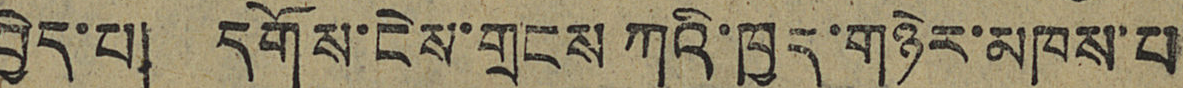བྱེད་པ། དགོས་ངེས་གྲངས ཀའི་ཁྱད་གཉེར་མཁས་པ
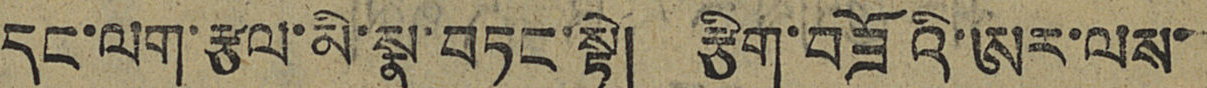དང་ལག་རྩལ་མི་སྣ་བཏང་སྟེ། རྩིག་བཟོའི་ཨར་ལས་
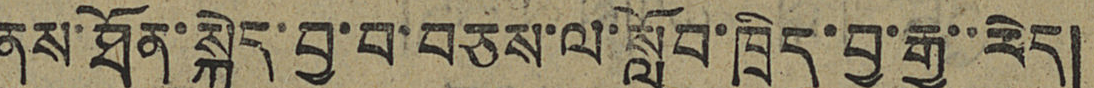ནས་ཐོན་སྐྱེད་བྱ་བ་བཅས་ལ་སློབ་ཁྲིད་བྱ་རྒྱུ་་རེད།
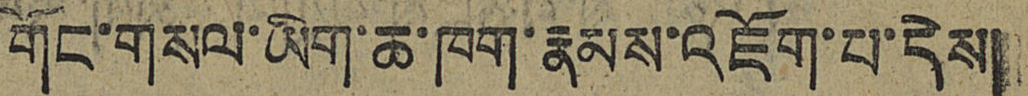གོང་གསལ་ཡིག་ཆ་ཁག་རྣམས་འཇོག་པ་དེས།
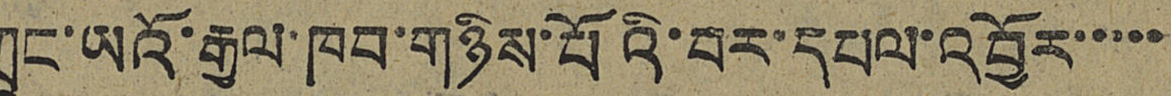ཀྲུང་ཡའོ་རྒྱལ་ཁབ་གཉིས་པོའི་བར་དཔལ་འབྱོར་་་་་
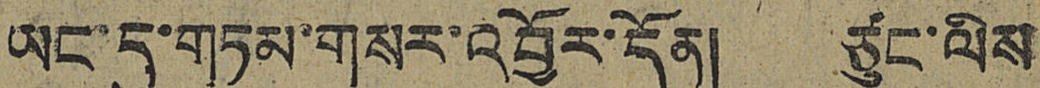ཡང་དུ་གཏམ་གསར་འབྱོར་དོན། ཙུང་ལིས
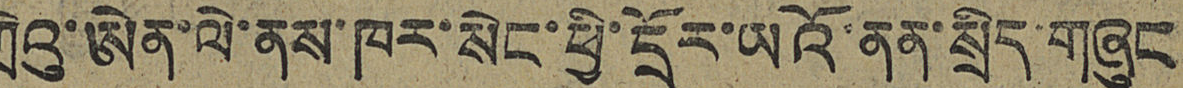ཀྲིའུ་ཨེན་ལེ་ནས་ཁར་སེང་ཕྱི་དྲོར་ཡའོ་ནན་སྲིད་གཞུང
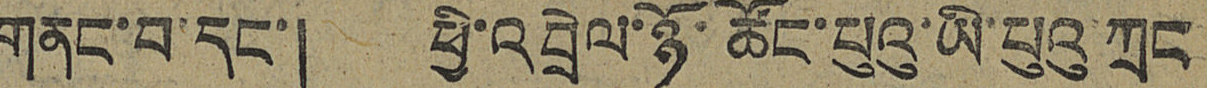གནང་བ་དང་། ཕྱི་འབྲེལ་ཉོ་ཚོང་པུའུ་ཡི་པུའུ ཀྲང
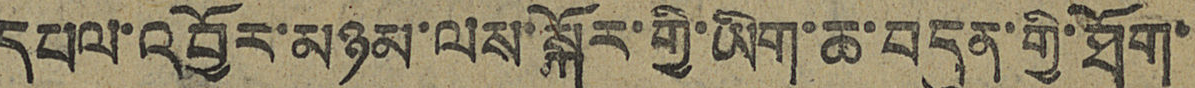དཔལ་འབྱོར་མཉམ་ལས་སྐོར་གྱི་ཡིག་ཆ་བདུན་གྱི་ཐོག་
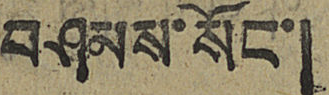བཤམས་སོང་།
